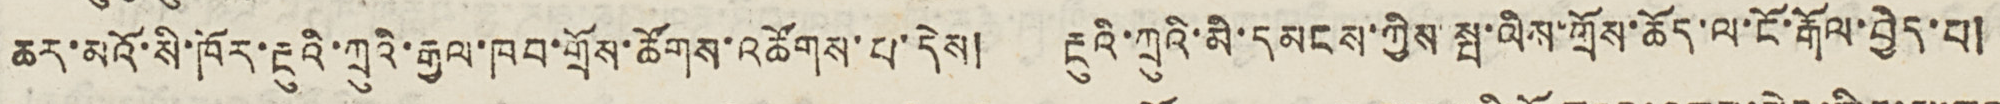ཆར་མའོ་སི་ཁོར་རྔུའི་ཀྲུའི་རྒྱལ་ཁབ་གྲོས་ཚོགས་འཚོགས་པ་དེས། རྔུའི་ཀྲུའི་མི་དམངས་ཀྱིས་སྤ་ལིས་ཀྲོས་ཆོད་ལ་ངོ་རྒོལ་བྱེད་པ།
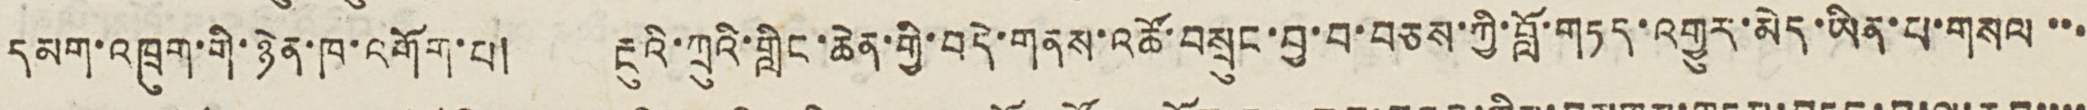དམག་འཁྲུག་གི་ཉེན་ཁ་འགོག་པ། རྔུའི་ཀྲུའི་གླིང་ཆེན་གྱི་བདེ་གནས་འཚོ་བསྲུང་བྱ་བ་བཅས་ཀྱི་བློ་གཏད་འགྱུར་མེད་ཡིན་པ་གསལ་་་
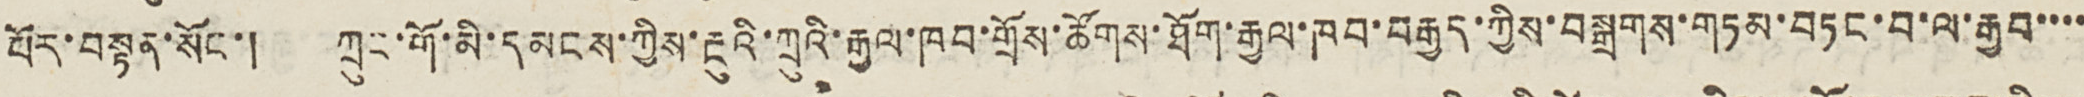པོར་བསྟན་སོང་། ཀྲུང་གོ་མི་དམངས་ཀྱིས་རྔུའི་ཀྲུའི་རྒྱལ་ཁབ་གྲོས་ཚོགས་ཐོག་རྒྱལ་ཁབ་བརྒྱད་ཀྱིས་བསྒྲགས་གཏམ་བཏང་བ་ལ་རྒྱབ་་་་
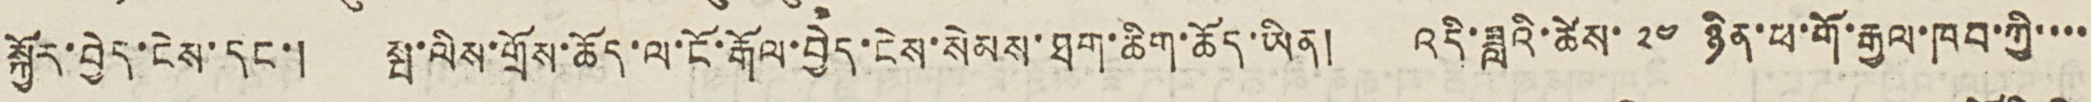སྐྱོར་བྱེད་ངེས་དང་། སྤ་ལིས་གྲོས་ཆོད་ལ་ངོ་རྒོལ་བྱེད་ངེས་སེམས་ཐག་ཆིག་ཆོད་ཡིན། འདི་ཟླའི་ཚེས་ ༢༤ ཉིན་ཕ་གོ་རྒྱལ་ཁབ་ཀྱི་་་་
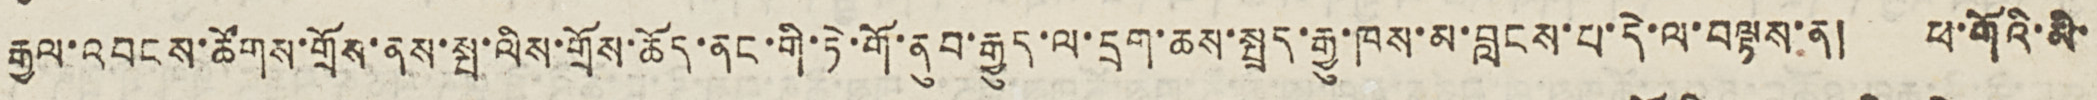རྒྱལ་འབངས་ཚོགས་གྲོས་ནས་སྤ་ལིས་གྲོས་ཆོད་ནང་གི་ཏེ་གོ་ནུབ་རྒྱུད་ལ་དྲག་ཆས་སྤྲད་རྒྱུ་ཁས་མ་བླངས་པ་དེ་ལ་བལྟས་ན། ཕ་གོའི་མི་
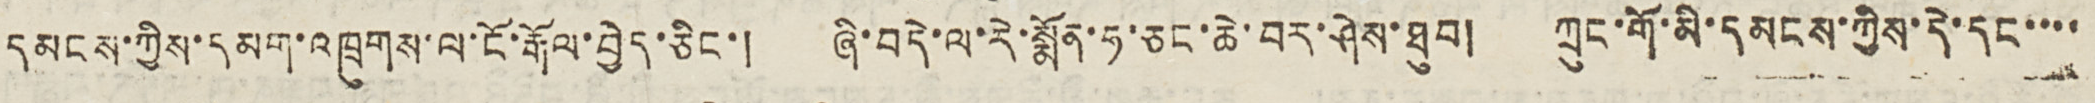དམངས་ཀྱིས་དམག་འཁྲུགས་ལ་ངོ་རྒོལ་བྱེད་ཅིང་། ཞི་བདེ་ལ་རེ་སྨོན་ཧ་ཅང་ཆེ་བར་ཤེས་ཐུབ། ཀྲུང་གོ་མི་དམངས་ཀྱིས་དེ་དང་་་་
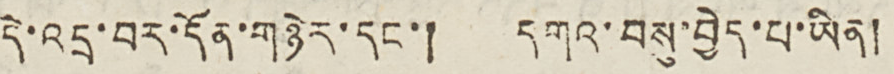དེ་འདྲ་བར་དོན་གཉེར་དང་། དགའ་བསུ་བྱེད་པ་ཡིན།
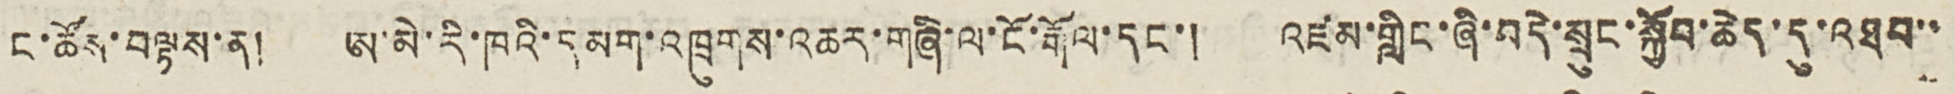ང་ཚོས་བལྟས་ན། ཨ་མེ་རི་ཁའི་དམག་འཁྲུགས་འཆར་གཞི་ལ་ངོ་རྒོལ་དང་། འཛམ་གླིང་ཞི་བདེ་སྲུང་སྐྱོབ་ཆེད་དུ་འཐབ་་
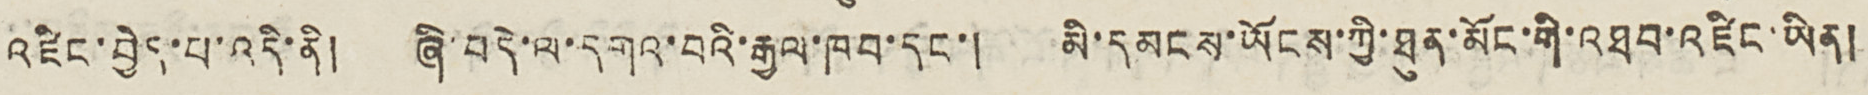འཛིང་བྱེད་པ་འདི་ནི། ཞི་བདེ་ལ་དགའ་བའི་རྒྱལ་ཁབ་དང་། མི་དམངས་ཡོངས་ཀྱི་ཐུན་མོང་གི་འཐབ་འཛིང་ཡིན།
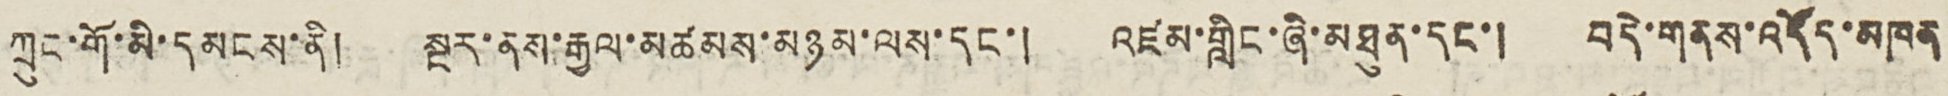ཀྲུང་གོ་མི་དམངས་ནི། སྔར་ནས་རྒྱལ་མཚམས་མཉམ་ལས་དང་། འཛམ་གླིང་ཞི་མཐུན་དང་། བདེ་གནས་འདོད་མཁན
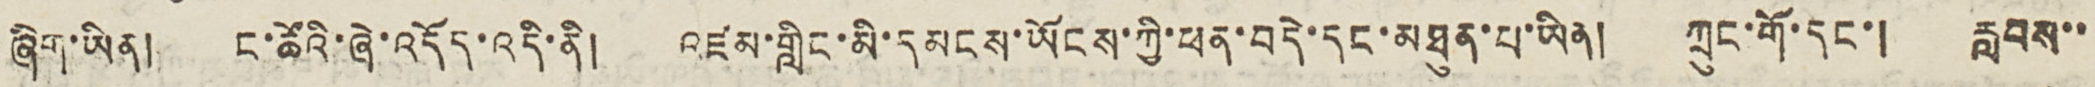ཞིག་ཡིན། ང་ཚོའི་ཞེ་འདོད་འདི་ནི། འཛམ་གླིང་མི་དམངས་ཡོངས་ཀྱི་ཕན་བདེ་དང་མཐུན་པ་ཡིན། ཀྲུང་གོ་དང་། རླབས་་
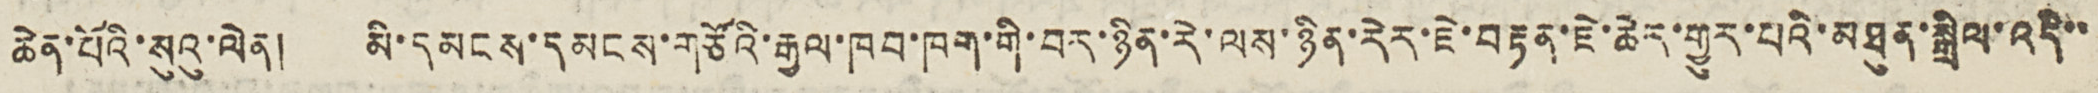ཆེན་པོའི་སུའུ་ལེན། མི་དམངས་དམངས་གཙོའི་རྒྱལ་ཁབ་ཁག་གི་བར་ཉིན་རེ་ལས་ཉིན་རེར་ཇེ་བརྟན་ཇེ་ཆེར་གྱུར་པའི་མཐུན་སྒྲིལ་འདི་་
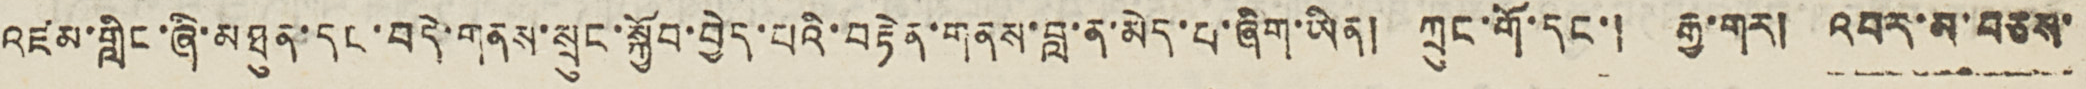འཛམ་གླིང་ཞི་མཐུན་དང་བདེ་གནས་སྲུང་སྐྱོབ་བྱེད་པའི་བརྟེན་གནས་བླ་ན་མེད་པ་ཞིག་ཡིན། ཀྲུང་གོ་དང་། རྒྱ་གར། འབར་མ་བཅས་
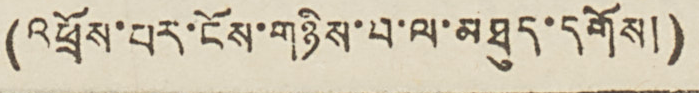(འཕྲོས་པར་ངོས་གཉིས་པ་ལ་མཐུད་དགོས།)
